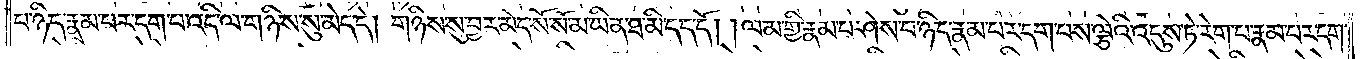པ་ཉིད་རྣམ་པར་དག་པ་འདི་ལ་གཉིས་སུ་མེད་དེ། གཉིས་སུ་བྱར་མེད་སོ་སོ་མ་ཡིན་ཐ་མི་དད་དོ། །ལམ་གྱི་རྣམ་པ་ཤེས་པ་ཉིད་རྣམ་པར་དག་པས་ལྕེའི་འདུས་ཏེ་རེག་པ་རྣམ་པར་དག་
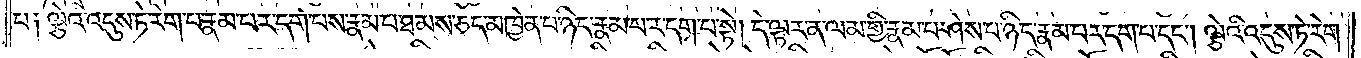པ༑ ལྕེའི་དུས་ཏེ་རེག་པ་རྣམ་པར་དག་པས་རྣམ་པ་ཐམས་ཅད་མཁྱེན་པ་ཉིད་རྣམ་པར་དག་པ་སྟེ། དེ་ལྟར་ན་ལམ་གྱི་རྣམ་པ་ཤེས་པ་ཉིད་རྣམ་པར་དག་པ་དང༌། ལྕེའི་འདུས་ཏེ་རེག་
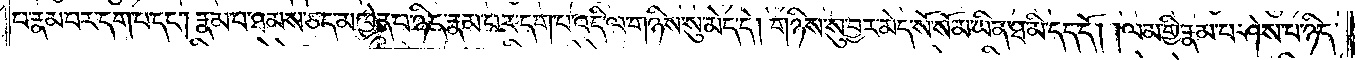པ་རྣམ་པར་དག་པ་དང༌། རྣམ་པ་ཐམས་ཅད་མཁྱེན་པ་ཉིད་རྣམ་པར་དག་པ་འདི་ལ་གཉིས་སུ་མེད་དེ། གཉིས་སུ་བྱར་མེད་སོ་སོ་མ་ཡིན་ཐ་མི་དད་དོ། །ལམ་གྱི་རྣམ་པ་ཤེས་པ་ཉིད་
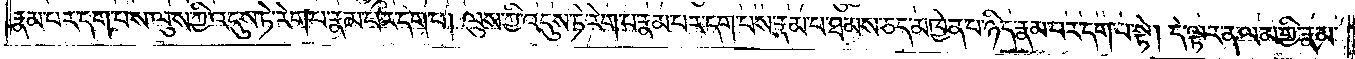རྣམ་པར་དག་པས་ལུས་ཀྱི་འདུས་ཏེ་རེག་པ་རྣམ་པར་དག་པ། ལུས་ཀྱི་འདུས་ཏེ་རེག་པ་རྣམ་པར་དག་པས་རྣམ་པ་ཐམས་ཅད་མཁྱེན་པ་ཉིད་རྣམ་པར་དག་པ་སྟེ། དེ་ལྟར་ན་ལམ་གྱི་རྣམ་
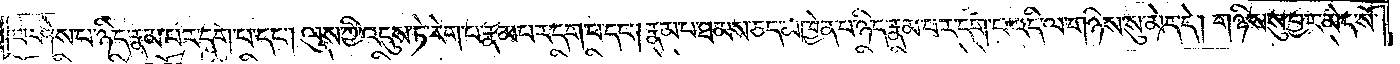པ་ཤེས་པ་ཉིད་རྣམ་པར་དག་པ་དང༌། ལུས་ཀྱི་འདུས་ཏེ་རེག་པ་རྣམ་པར་དག་པ་དང༌། རྣམ་པ་ཐམས་ཅད་མཁྱེན་པ་ཉིད་རྣམ་པར་དག་པ་འདི་ལ་གཉིས་སུ་མེད་དེ། གཉིས་སུ་བྱར་མེད་སོ་
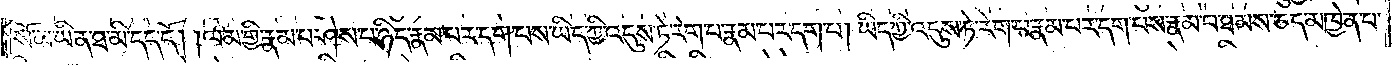སོ་མ་ཡིན་ཐ་མི་དད་དོ། །ལམ་གྱི་རྣམ་པ་ཤེས་པ་ཉིད་རྣམ་པར་དག་པས་ཡིད་ཀྱི་འདུས་ཏེ་རེག་པ་རྣམ་པར་དག་པ། ཡིད་ཀྱི་འདུས་ཏེ་རེག་པ་རྣམ་པར་དག་པས་རྣམ་པ་ཐམས་ཅད་མཁྱེན་པ་
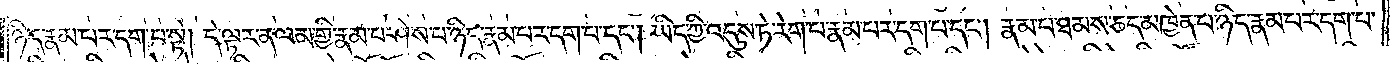ཉིད་རྣམ་པར་དག་པ་སྟེ། དེ་ལྟར་ན་ལམ་གྱི་རྣམ་པ་ཤེས་པ་ཉིད་རྣམ་པར་དག་པ་དང༌། ཡིད་ཀྱི་འདུས་ཏེ་རེག་པ་རྣམ་པར་དག་པ་དང༌། རྣམ་པ་ཐམས་ཅད་མཁྱེན་པ་ཉིད་རྣམ་པར་དག་པ་
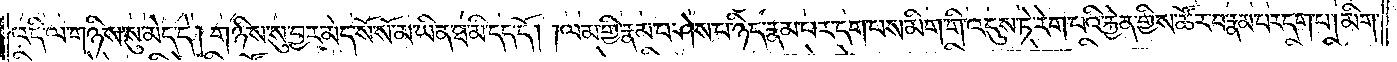འདི་ལ་གཉིས་སུ་མེད་དེ། གཉིས་སུ་བྱར་མེད་སོ་སོ་མ་ཡིན་ཐ་མི་དད་དོ། །ལམ་གྱི་རྣམ་པ་ཤེས་པ་ཉིད་རྣམ་པར་དག་པས་མིག་གི་འདུས་ཏེ་རེག་པའི་རྐྱེན་གྱིས་ཚོར་བ་རྣམ་པར་དག་པ། མིག་
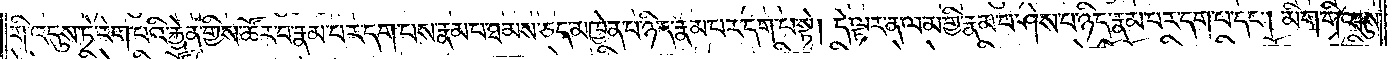གི་འདུས་ཏེ་རེག་པའི་རྐྱེན་གྱིས་ཚོར་བ་རྣམ་པར་དག་པས་རྣམ་པ་ཐམས་ཅད་མཁྱེན་པ་ཉིད་རྣམ་པར་དག་པ་སྟེ། དེ་ལྟར་ན་ལམ་གྱི་རྣམ་པ་ཤེས་པ་ཉིད་རྣམ་པར་དག་པ་དང༌། མིག་གི་འདུས་
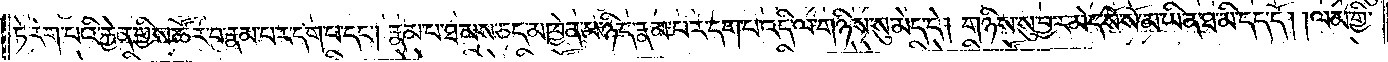ཏེ་རེག་པའི་རྐྱེན་གྱིས་ཚོར་བ་རྣམ་པར་དག་པ་དང༌། རྣམ་པ་ཐམས་ཅད་མཁྱེན་པ་ཉིད་རྣམ་པར་དག་པ་འདི་ལ་གཉིས་སུ་མེད་དེ། གཉིས་སུ་བྱར་མེད་སོ་སོ་མ་ཡིན་ཐ་མི་དད་དོ། །ལམ་གྱི་
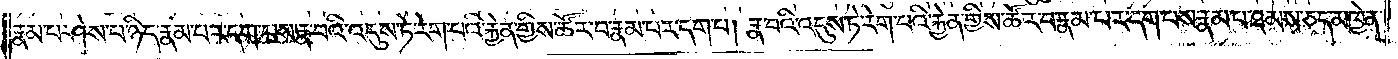རྣམ་པར་ཤེས་པ་ཉིད་རྣམ་པར་དག་པས་རྣ་བའི་འདུས་ཏེ་རེག་པའི་རྐྱེན་གྱིས་ཚོར་བ་རྣམ་པར་དག་པ། རྣ་བའི་འདུས་ཏེ་རེག་པའི་རྐྱེན་གྱིས་ཚོར་བ་རྣམ་པར་དག་པས་རྣམ་པ་ཐམས་ཅད་མཁྱེན་
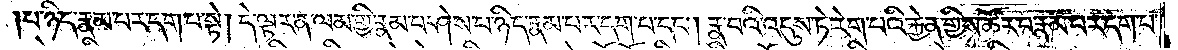པ་ཉིད་རྣམ་པར་དག་པ་སྟེ། དེ་ལྟར་ན་ལམ་གྱི་རྣམ་པ་ཤེས་པ་ཉིད་རྣམ་པར་དག་པ་དང༌། རྣ་བའི་འདུས་ཏེ་རེག་པའི་རྐྱེན་གྱིས་ཚོར་བ་རྣམ་པར་དག་པ་
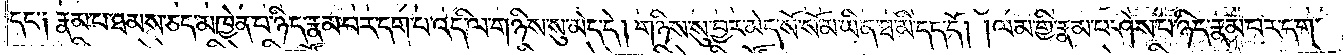དང་༑ རྣམ་པ་ཐམས་ཅད་མཁྱེན་པ་ཉིད་རྣམ་པར་དག་པ་འདི་ལ་གཉིས་སུ་མེད་དེ། གཉིས་སུ་བྱར་མེད་སོ་སོ་མ་ཡིན་ཐ་མི་དད་དོ། །ལམ་གྱི་རྣམ་པ་ཤེས་པ་ཉིད་རྣམ་པར་དག་
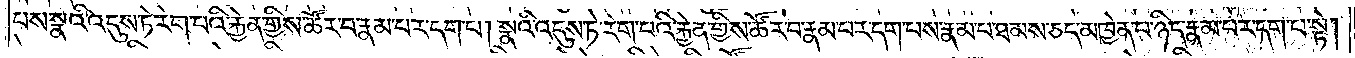པས་སྣའི་འདུས་ཏེ་རེག་པའི་རྐྱེན་གྱིས་ཚོར་བ་རྣམ་པར་དག་པ། སྣའི་འདུས་ཏེ་རེག་པའི་རྐྱེན་གྱིས་ཚོར་བ་རྣམ་པར་དག་པས་རྣམ་པ་ཐམས་ཅད་མཁྱེན་པ་ཉིད་རྣམ་པར་དག་པ་སྟེ།
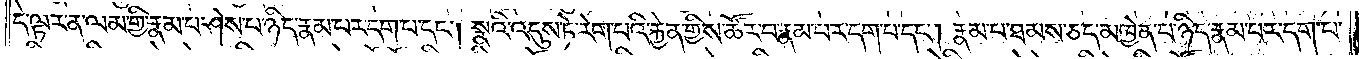དེ་ལྟར་ན་ལམ་གྱི་རྣམ་པ་ཤེས་པ་འདི་རྣམ་པར་དག་པ་དང༌། སྣའི་འདུས་ཏེ་རེག་པའི་རྐྱེན་གྱིས་ཚོར་བ་རྣམ་པར་དག་པ་དང༌། རྣམ་པ་ཐམས་ཅད་མཁྱེན་པ་ཉིད་རྣམ་པར་དག་པ་
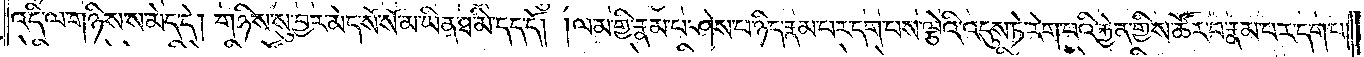འདི་ལ་གཉིས་སུ་མེད་དེ། གཉིས་སུ་བྱར་མེད་སོ་སོ་མ་ཡིན་ཐ་མི་དད་དོ། །ལམ་གྱི་རྣམ་པ་ཤེས་པ་ཉིད་རྣམ་པར་དག་པས་ལྕེའི་དུས་ཏེ་རེག་པའི་རྐྱེན་གྱིས་ཚོར་བ་རྣམ་པར་དག་པ།
